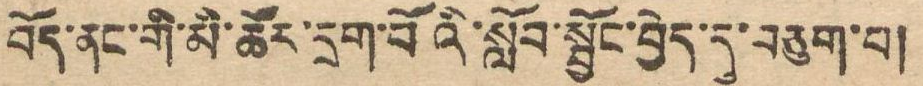བོད་ནང་གི་མི་ཚོར་དྲག་པོའི་སློབ་སྦྱོང་བྱེད་དུ་བཅིག་པ།
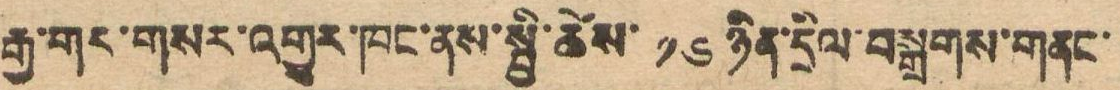རྒྱ་གར་གསར་འགྱུར་ཁང་ནས་སྤྱི་ཚེས་ ༡༦ ཉིན་དྲིལ་བསྒྲགས་གནང་
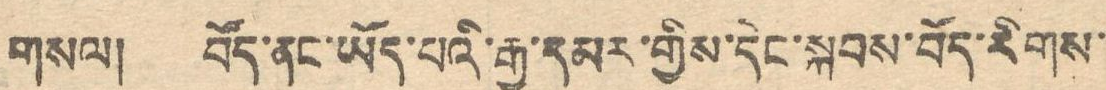གསལ། བོད་ནང་ཡོད་པའི་རྒྱ་དམར་གྱིས་དེང་སྐབས་བོད་རིགས་
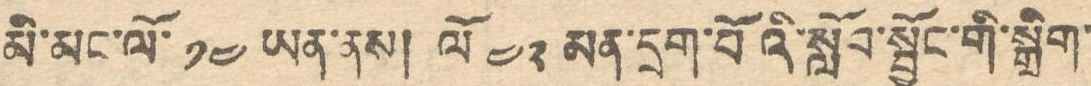མི་མང་ལོ་ ༡༤ ཡན་ནས། ལོ ༤༢ མན་དྲག་པོའི་སློབ་སྦྱོང་གི་སྒྲིག་
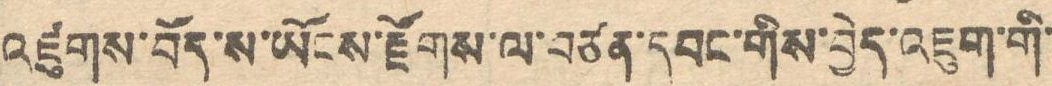འཛུགས་བོད་ས་ཡོངས་རྫོགས་ལ་བཙན་དབང་གིས་བྱེད་འཇུག་གི་
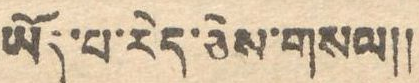ཡོད་པ་རེད་ཅེས་གསལ༎
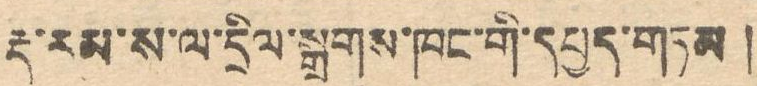རྡ་རམ་ས་ལ་དྲིལ་སྒྲགས་ཁང་གི་དཔྱད་གཏམ །
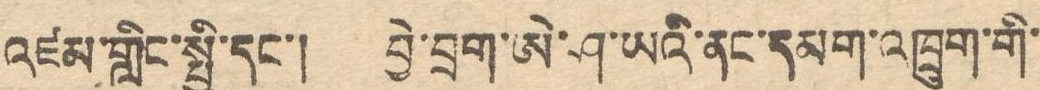འཛམ་གླིང་སྤྱི་དང་། བྱེ་བྲག་ཨེ་ཤ་ཡའི་ནང་དམག་འཁྲུག་གི་
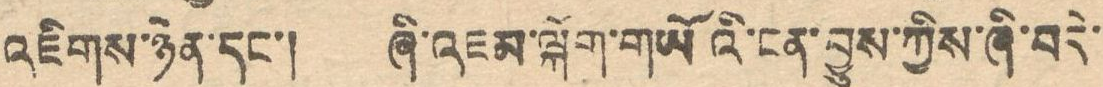འཇིགས་ཉེན་དང་། ཞི་འཇམ་ལྐོག་གཡོའི་ངན་བྱུས་ཀྱིས་ཞི་བདེ་
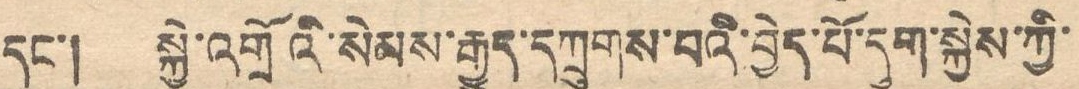དང་། སྐྱེ་འགྲོའི་སེམས་རྒྱུད་དཀྲུགས་པའི་བྱེད་པོ་དུག་སྐྱེས་ཀྱི་
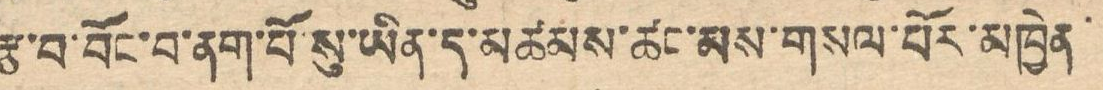རྩ་བ་བོང་བ་ནག་པོ་སུ་ཡིན་ད་མཚམས་ཚང་མས་གསལ་པོར་མཁྱེན་
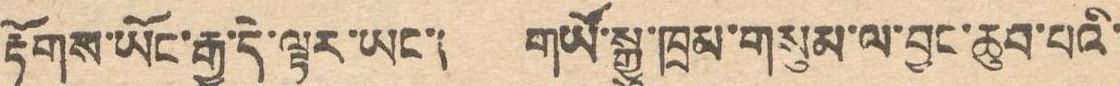རྟོགས་ཡོང་རྒྱུ་དེ་ལྟར་རང་། གཡོ་སྐྱུ་ཁྲམ་གསུམ་ལ་བྱང་ཆུབ་པའི་
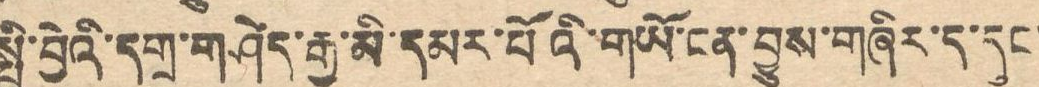སྤྱི་བྱེའི་དགྲ་གཤེད་རྒྱ་མི་དམར་པོའི་གཡོ་ངན་བྱུས་གཞིར་ད་དུང་
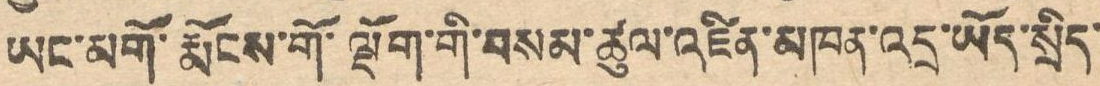ཡང་མགོ་རྨོངས་གོ་ལྡོག་གི་བསམ་ཚུལ་འཛིན་མཁན་འདྲ་ཡོད་སྲིད་
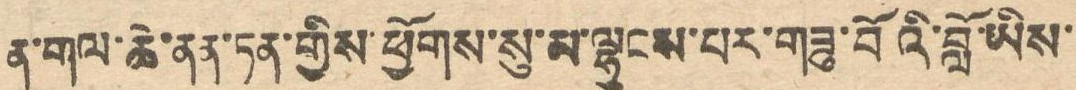ན་གལ་ཆེ་ནན་ཏན་གྱིས་ཕྱོགས་སུ་ལྷུངས་པར་གཟུ་བོའི་བློ་ཡིས་
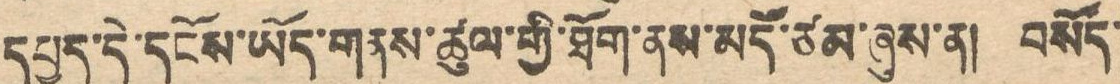དཔྱད་དེ་དངོས་ཡོད་གནས་ཚུལ་གྱི་ཐོག་ནས་མདོ་ཙམ་ཞུས་ན། བསོད་
